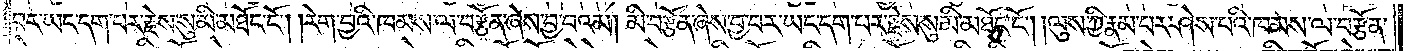བར་ཡང་དག་པར་རྗེས་སུ་མི་མཐོང་ངོ༌། །རེག་བྱའི་ཁམས་ལ་བརྩོན་ཞེས་བྱ་བའམ། མི་བརྩོན་ཞེས་བྱ་བར་ཡང་དག་པར་རྗེས་སུ་མི་མཐོང་ངོ༌། །ལུས་ཀྱི་རྣམ་པར་ཤེས་པའི་ཁམས་ལ་བརྩོན་
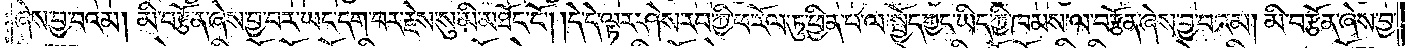ཞེས་བྱ་བའམ། མི་བརྩོན་ཞེས་བྱ་བར་ཡང་དག་པར་རྗེས་སུ་མི་མཐོང་ངོ༌། །དེ་དེ་ལྟར་ཤེས་རབ་ཀྱི་ཕ་རོལ་ཏུ་ཕྱིན་པ་ལ་སྤྱོད་ཀྱང་ཡིད་ཀྱི་ཁམས་ལ་བརྩོན་ཞེས་བྱ་བའམ། མི་བརྩོན་ཞེས་བྱ་
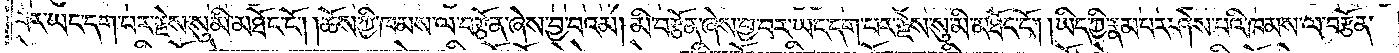བར་ཡང་དག་པར་རྗེས་སུ་མི་མཐོང་ངོ༌། །ཆོས་ཀྱི་ཁམས་ལ་བརྩོན་ཞེས་བྱ་བའམ། མི་བརྩོན་ཞེས་བྱ་བར་ཡང་དག་པར་རྗེས་སུ་མི་མཐོང་ངོ༌། །ཡིད་ཀྱི་རྣམ་པར་ཤེས་པའི་ཁམས་ལ་བརྩོན་
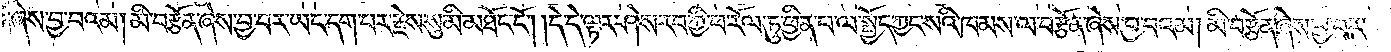ཞེས་བྱ་བའམ། མི་བརྩོན་ཞེས་བྱ་བར་ཡང་དག་པར་རྗེས་སུ་མི་མཐོང་ངོ༌། །དེ་དེ་ལྟར་ཤེས་རབ་ཀྱི་ཕ་རོལ་ཏུ་ཕྱིན་པ་ལ་སྤྱོད་ཀྱང་སའི་ཁམས་ལ་བརྩོན་ཞེས་བྱ་བའམ། མི་བརྩོན་ཞེས་བྱ་བར་
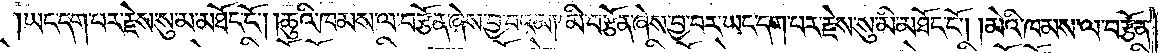ཡང་དག་པར་རྗེས་སུ་མ་མཐོང་ངོ༌། །ཆུའི་ཁམས་ལ་བརྩོན་ཞེས་བྱ་བའམ། མི་བརྩོན་ཞེས་བྱ་བར་ཡང་དག་པར་རྗེས་སུ་མི་མཐོང་ངོ༌། །མེའི་ཁམས་ལ་བརྩོན་
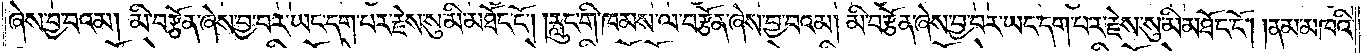ཞེས་བྱ་བའམ། མི་བརྩོན་ཞེས་བྱ་བར་ཡང་དག་པར་རྗེས་སུ་མི་མཐོང་ངོ༌། །རླུང་གི་ཁམས་ལ་བརྩོན་ཞེས་བྱ་བའམ། མི་བརྩོན་ཞེས་བྱ་བར་ཡང་དག་པར་རྗེས་སུ་མི་མཐོང་ངོ༌། །ནམ་མཁའི་
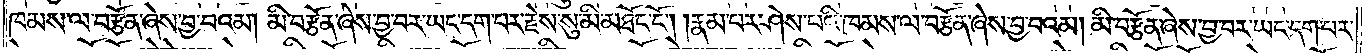ཁམས་ལ་བརྩོན་ཞེས་བྱ་བའམ། མི་བརྩོན་ཞེས་བྱ་བར་ཡང་དག་པར་རྗེས་སུ་མི་མཐོང་ངོ༌། །རྣམ་པར་ཤེས་པའི་ཁམས་ལ་བརྩོན་ཞེས་བྱ་བའམ། མི་བརྩོན་ཞེས་བྱ་བར་ཡང་དག་པར་
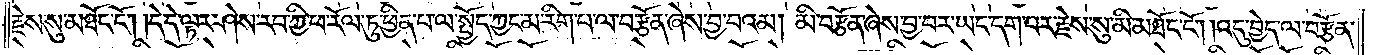རྗེས་སུ་མཐོང་ངོ༌། །དེ་དེ་ལྟར་ཤེས་རབ་ཀྱི་ཕ་རོལ་ཏུ་ཕྱིན་པ་ལ་སྤྱོད་ཀྱང་མ་རིག་པ་ལ་བརྩོན་ཞེས་བྱ་བའམ། མི་བརྩོན་ཞེས་བྱ་བར་ཡང་དག་པར་རྗེས་སུ་མི་མཐོང་ངོ༌། །འདུ་བྱེད་ལ་བརྩོན་
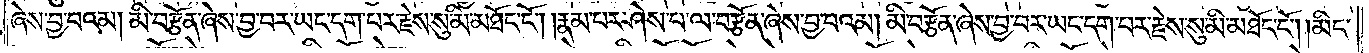ཞེས་བྱ་བའམ། མི་བརྩོན་ཞེས་བྱ་བར་ཡང་དག་པར་རྗེས་སུ་མི་མཐོང་ངོ༌། །རྣམ་པར་ཤེས་པ་ལ་བརྩོན་ཞེས་བྱ་བའམ། མི་བརྩོན་ཞེས་བྱ་བར་ཡང་དག་པར་རྗེས་སུ་མི་མཐོང་ངོ༌། །མིང་
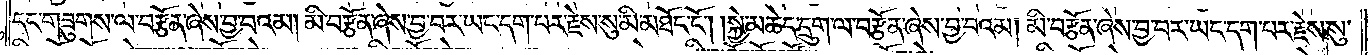དང་གཟུགས་ལ་བརྩོན་ཞེས་བྱ་བའམ། མི་བརྩོན་ཞེས་བྱ་བར་ཡང་དག་པར་རྗེས་སུ་མི་མཐོང་ངོ༌། །སྐྱེ་མཆེད་དྲུག་ལ་བརྩོན་ཞེས་བྱ་བའམ། མི་བརྩོན་ཞེས་བྱ་བར་ཡང་དག་པར་རྗེས་སུ་
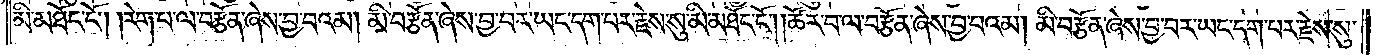མི་མཐོང་ངོ༌། །རེག་པ་ལ་བརྩོན་ཞེས་བྱ་བའམ། མི་བརྩོན་ཞེས་བྱ་བར་ཡང་དག་པར་རྗེས་སུ་མི་མཐོང་ངོ༌། །ཚོར་བ་ལ་བརྩོན་ཞེས་བྱ་བའམ། མི་བརྩོན་ཞེས་བྱ་བར་ཡང་དག་པར་རྗེས་སུ་
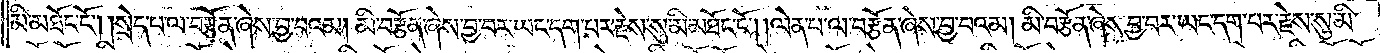མི་མཐོང་ངོ༌། །སྲེད་པ་ལ་བརྩོན་ཞེས་བྱ་བའམ། མི་བརྩོན་ཞེས་བྱ་བར་ཡང་དག་པར་རྗེས་སུ་མི་མཐོང་ངོ༌། །ལེན་པ་ལ་བརྩོན་ཞེས་བྱ་བའམ། མི་བརྩོན་ཞེས་བྱ་བར་ཡང་དག་པར་རྗེས་སུ་མི་
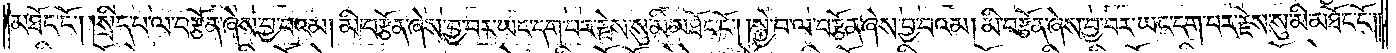མཐོང་ངོ༌། །སྲིད་པ་ལ་བརྩོན་ཞེས་བྱ་བའམ། མི་བརྩོན་ཞེས་བྱ་བར་ཡང་དག་པར་རྗེས་སུ་མི་མཐོང་ངོ༌། །སྐྱེ་བ་ལ་བརྩོན་ཞེས་བྱ་བའམ། མི་བརྩོན་ཞེས་བྱ་བར་ཡང་དག་པར་རྗེས་སུ་མི་མཐོང་ངོ༌༎
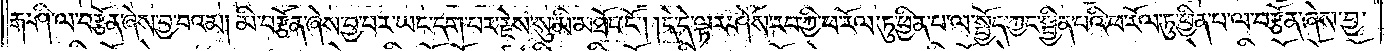རྒ་ཤི་ལ་བརྩོན་ཞེས་བྱ་བའམ། མི་བརྩོན་ཞེས་བྱ་བར་ཡང་དག་པར་རྗེས་སུ་མི་མཐོང་ངོ༌། །དེ་དེ་ལྟར་ཤེས་རབ་ཀྱི་ཕ་རོལ་ཏུ་ཕྱིན་པ་ལ་སྤྱོད་ཀྱང་སྦྱིན་པའི་ཕ་རོལ་ཏུ་ཕྱིན་པ་ལ་བརྩོན་ཞེས་བྱ་
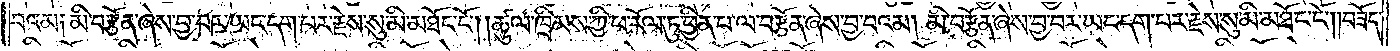བའམ་མི་བརྩོན་ཞེས་བྱ་བར་ཡང་དག་པར་རྗེས་སུ་མི་མཐོང་ངོ༌། །ཚུལ་ཁྲིམས་ཀྱི་ཕ་རོལ་ཏུ་ཕྱིན་པ་ལ་བརྩོན་ཞེས་བྱ་བའམ། མི་བརྩོན་ཞེས་བྱ་བར་ཡང་དག་པར་རྗེས་སུ་མི་མཐོང་ངོ༌། །བཟོད་
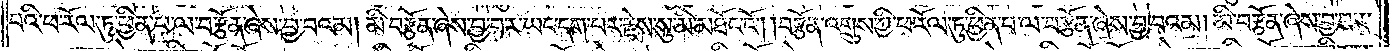པའི་ཕ་རོལ་ཏུ་ཕྱིན་པ་ལ་བརྩོན་ཞེས་བྱ་བའམ། མི་བརྩོན་ཞེས་བྱ་བར་ཡང་དག་པར་རྗེས་སུ་མི་མཐོང་ངོ༌། །བརྩོན་འགྲུས་ཀྱི་ཕ་རོལ་ཏུ་ཕྱིན་པ་ལ་བརྩོན་ཞེས་བྱ་བའམ། མི་བརྩོན་ཞེས་བྱ་བར་
